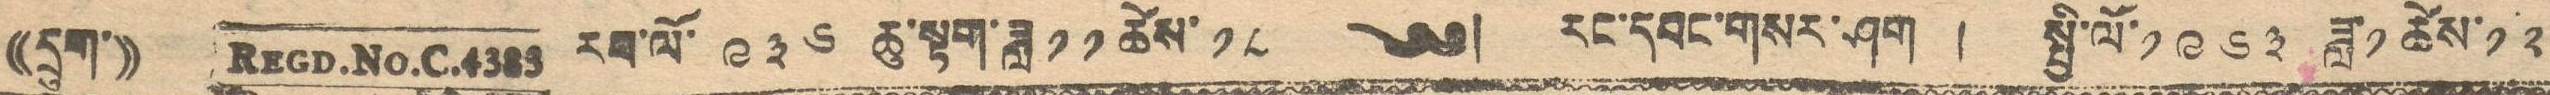(( དྲུག་ )) REGD. NO. C. 4383 རབ་ལོ་ ༩༣༦ ཆུ་སྟག་ཟླ ༡༡ ཚེས་ ༡༨ ༄༅། རང་དབང་གསར་ཤོག ། སྤྱི་ལོ་༡༩༦༣ ཟླ་༡ ཚེས་༡༢
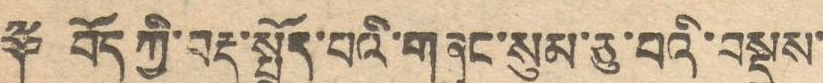༈ བོད་ཀྱི་བརྡ་སྤྲོད་པའི་གཞུང་སུམ་ཅུ་བའི་བསྡུས་
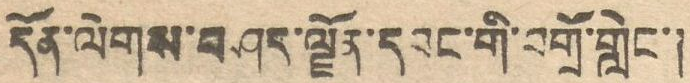དོན་ལེགས་བཤད་ལྗོང་དབང་གི་བགྲོ་གླེང་།
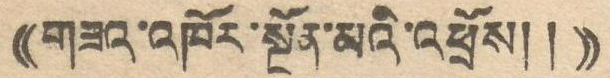((གཟའ་འཁོར་སྔོན་མའི་འཕྲོས། །))
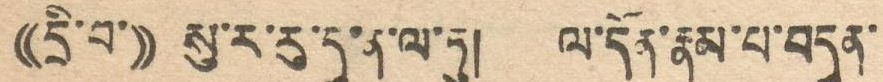((དྲི་བ་)) སུ་ར་རུ་དུ་ན་ལ་ཏུ། ལ་དོན་རྣམ་པ་བདུན་
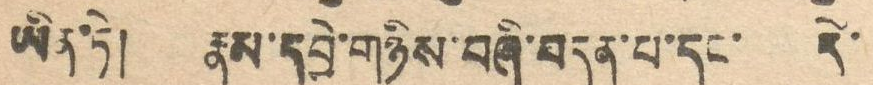ཡིན་ཏེ། རྣམ་དབྱེ་གཉིས་བཞི་བདུན་པ་དང་། དེ་
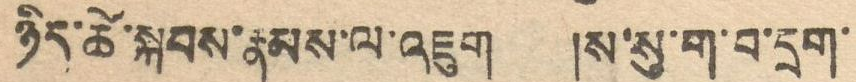ཉིད་ཚེ་སྐབས་རྣམས་ལ་འཇུག །ས་སུ་ག་བ་དྲག་
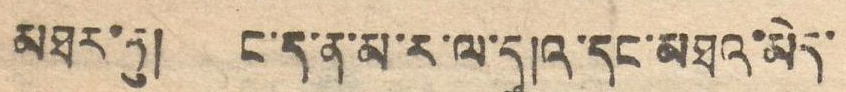མཐར་ཏུ། ང་ད་ན་མ་ར་ལ་དུ།འ་དང་མཐའ་མེད་
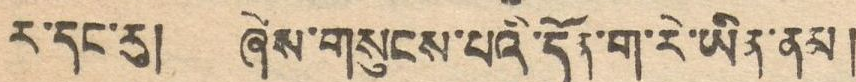ར་དང་རུ། ཞེས་གསུངས་པའི་དོན་ག་རེ་ཡིན་ནམ།
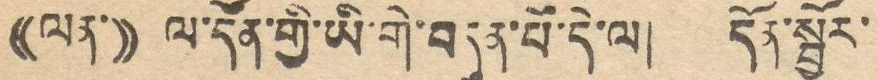((ལན་)) ལ་དོན་གྱི་ཡི་གེ་བདུན་པོ་དེ་ལ། དོན་སྦྱོར་
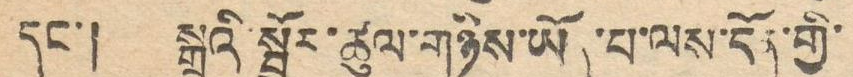དང་། སྒྲ་སྦྱོར་ཚུལ་གཉིས་ཡོད་པ་ལས་དོན་གྱི་
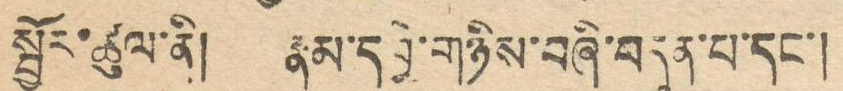སྦྱོར་ཚུལ་ནི། རྣམ་དབྱེ་གཉིས་བཞི་བདུན་པ་དང་།
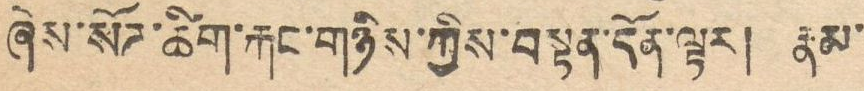ཞེས་སོཊ་ཚིག་སྐང་གནཡིས་ཀྱིས་བསྟན་དོན་ལྟར། རྣམ་
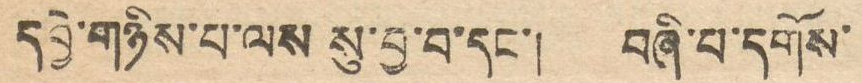དབྱེ་གཉིས་པ་ལས སུ་བྱ་བ་དང་། བཞི་པ་དགོས་
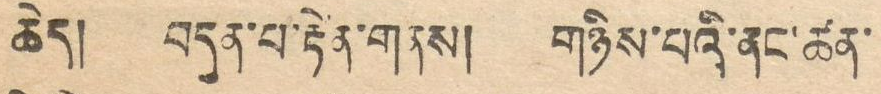ཆེད། བདུན་པ་རྟེན་གནས། གཉིས་པའི་ནང་ཚན་
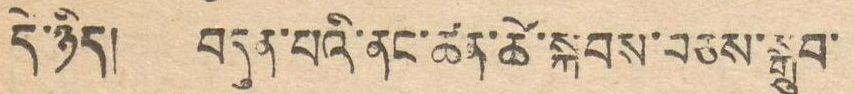དེ་ཉིད། བདུན་པའི་ནང་ཚན་ཚེ་སྐབས་བཅས་སྒྲུབ་
